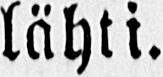lähti.
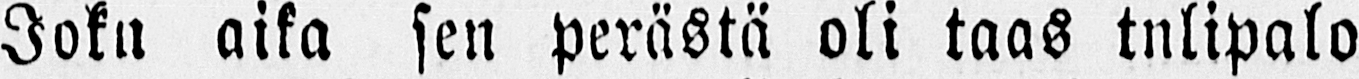Joku aika sen perästä oli taas tnlipalo
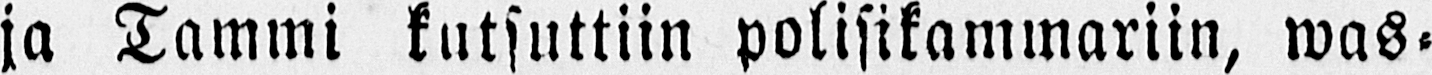ja Tammi kutsuttiin polisikammariin, was-
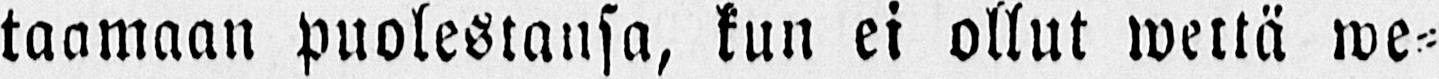taamaan puolestansa, kun ei ollut wettä we-
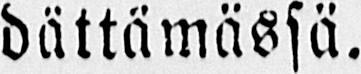dättämässä.
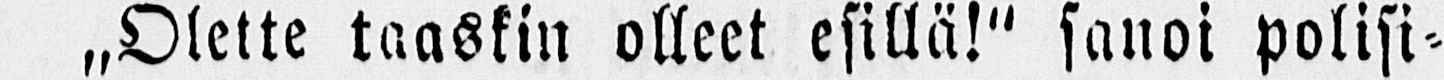˶Olette taaskin olleet esillä!" sanoi polisi-
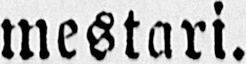mestari.
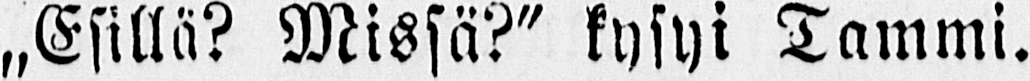Esillä? Missä?" kysyi Tammi.
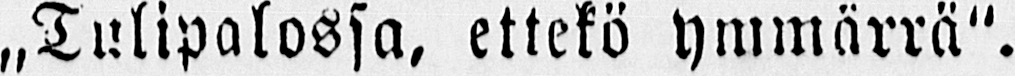Tulipalossa, ettekö ymmärrä".
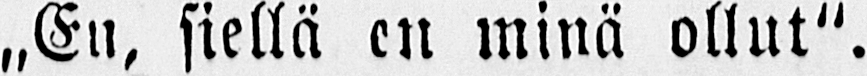„En, siellä en minä ollut".
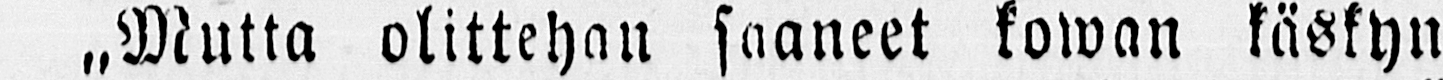˶Mutta olittehan saaneet kowan käskyn
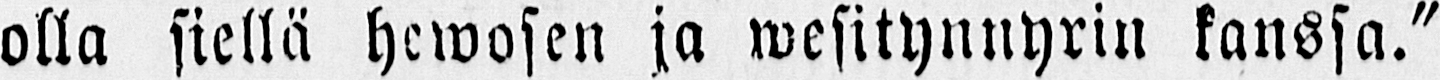olla siellä hewosen ja wesitynnyrin kanssa."
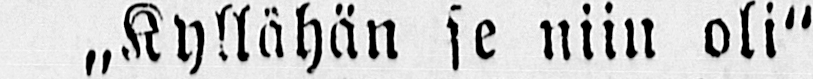˶Kyllähän se niin oli"
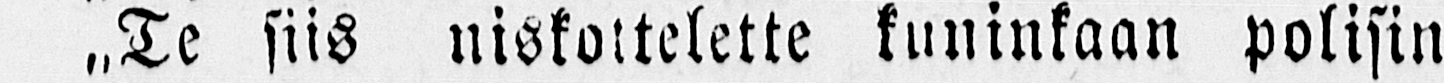˶Te siis niskoltelette kuninkaan polisin
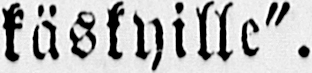käskyille".
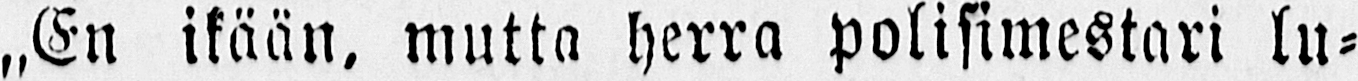"En ikään, mutta herra polisimestari lu-
